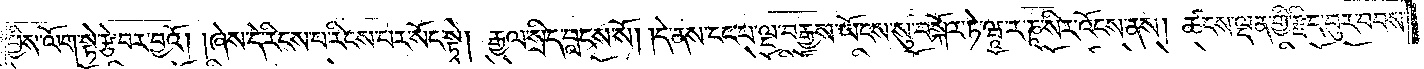ཕྱིས་ལོག་སྟེ་རྩེ་བར་བྱའོ། །ཞེས་དེ་རིངས་པ་རིངས་པར་སོང་སྟེ། རྒྱལ་སྲིད་བླངས་སོ། །དེ་ནས་ངང་པ་ལྔ་བརྒྱས་ཡོངས་སུ་བསྐོར་ཏེ་ཝཱ་ར་ཎཱ་སིར་འོངས་ནས། ཚངས་ལྡན་གྱི་རྫིང་བུར་བབས་
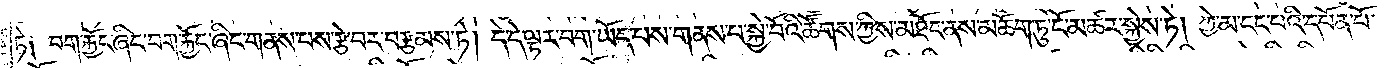ཏེ༑ བག་རྐྱོང་ཞིང་བག་རྐྱོང་ཞིང་གནས་པས་རྩེ་བར་བརྩམས་ཏེ། དེ་དེ་ལྟར་བག་ཡོད་པས་གནས་པ་སྐྱེ་བོའི་ཚོགས་ཀྱིས་མཐོང་ནས་མཆོག་ཏུ་ངོ་མཚར་སྐྱེས་ཏེ། ཀྱེ་མ་ངང་པའི་དཔོན་པོ་
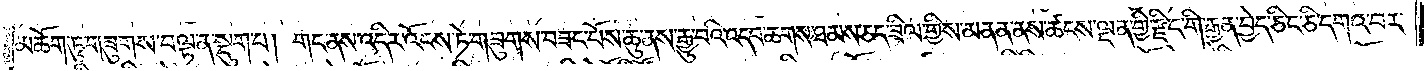མཆོག་ཏུ་གཟུགས་བལྟ་ན་སྡུག་པ། གང་ནས་འདིར་འོངས་ཏེ་གཟུགས་བཟང་པོས་ཆུ་ནས་རྒྱུ་བའི་འདབ་ཆགས་ཐམས་ཅད་ཟིལ་གྱིས་མནན་ནས་ཚངས་ལྡན་གྱི་རྫིང་གི་རྒྱན་བྱེད་ཅིང་ཅི་དགའ་བར་
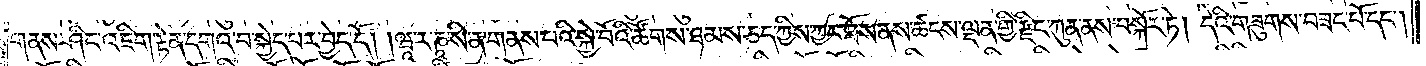གནས་ཤིང་འཇིག་རྟེན་དགའ་བ་སྐྱེད་པར་བྱེད་དོ། །ཝཱ་ར་ཎཱ་སི་ན་གནས་པའི་སྐྱེ་བོའི་ཚོགས་ཐམས་ཅད་ཀྱིས་ཀྱང་ཐོས་ནས་ཚངས་ལྡན་གྱི་རྫིང་ཀུན་ནས་བསྐོར་ཏེ། དེའི་གཟུགས་བཟང་པོ་དང༌།
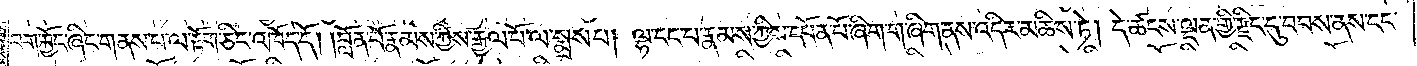བག་རྐྱོང་ཞིང་གནས་པ་ལ་རྟོག་ཅིང་འཁོད་དོ། །བློན་པོ་རྣམས་ཀྱིས་རྒྱལ་པོ་ལ་སྨྲས་པ། ལྷ་ངང་པ་རྣམས་ཀྱིས་དཔོན་པོ་ཞིག་ག་ཞིག་ནས་འདིར་མཆིས་ཏེ། དེ་ཚངས་ལྡན་གྱི་རྫིང་དུ་བབས་ནས་ངང་
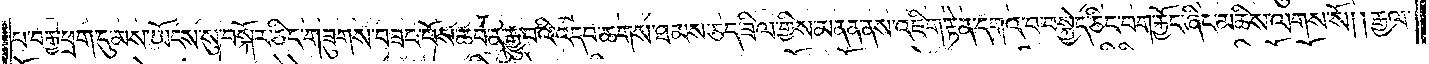པ་བརྒྱ་ཕྲག་དུ་མས་ཡོངས་སུ་བསྐོར་ཅིང་གཟུགས་བཟང་པོས་ཆབ་ན་རྒྱུ་བའི་འདབ་ཆགས་ཐམས་ཅད་ཟིལ་གྱིས་མནན་ནས་འཇིག་རྟེན་དགའ་བ་བསྐྱེད་ཅིང་བག་རྐྱོང་ཞིང་མཆིས་ལགས་སོ། །རྒྱལ་
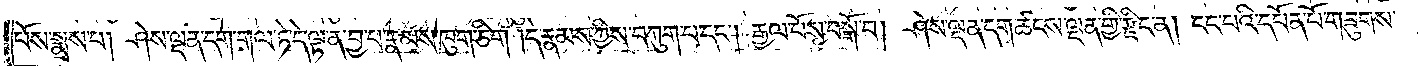པོས་སྨྲས་པ། ཤེས་ལྡན་དག་གལ་ཏེ་དེ་ལྟ་ན་བྱ་བ་རྣམས་ཁུག་ཅིག །དེ་རྣམས་ཀྱིས་བཀུག་པ་དང༌། རྒྱལ་པོས་བསྒོ་བ། ཤེས་ལྡན་དག་ཚངས་ལྡན་གྱི་རྫིང་ན། ངང་པའི་དཔོན་པོ་གཟུགས་
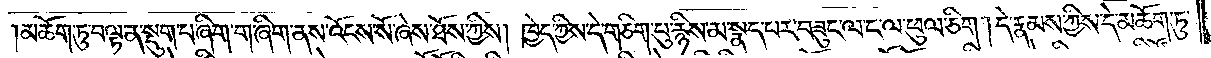མཆོག་ཏུ་བལྟ་ན་སྡུག་པ་ཞིག་ག་ཞིག་ནས་འོངས་སོ་ཞེས་ཐོས་ཀྱིས། ཁྱེད་ཀྱིས་དེ་གཅིག་པུ་རྙིས་མ་སྣད་པར་བཟུང་ལ་ང་ལ་ཕུལ་ཅིག །དེ་རྣམས་ཀྱིས་དེ་མཆོག་ཏུ་
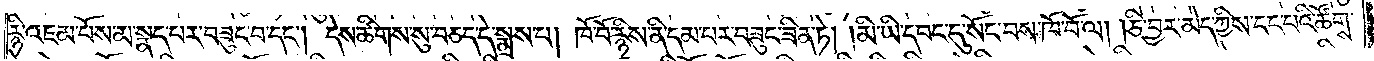རྙི་འཇམ་པོས་མ་སྣད་པར་བཟུང་བ་དང༌། དེས་ཚིགས་སུ་བཅད་དེ་སྨྲས་པ། ཁོ་བོ་རྙིས་ནི་དམ་པར་བཟུང་ཟིན་ཏེ། །མི་ཡི་དབང་དུ་སོང་བས་ཁོ་བོ་ལ། །ཅི་བྱར་མེད་ཀྱིས་ངང་པའི་ཚོགས་
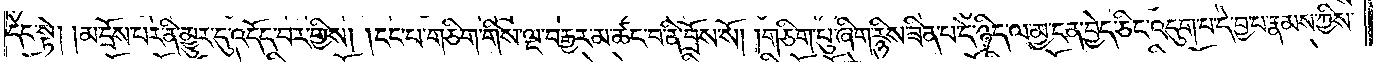དེང་སྟེ། །མ་དྲོས་པར་ནི་མྱུར་དུ་འདོད་པར་གྱིས། །ངང་པ་གཅིག་གིས་ལྔ་བརྒྱར་མ་ཚང་བ་ནི་བྲོས་སོ། །གཅིག་པུ་ཞིག་རྙིས་ཟིན་པ་དེ་ཉིད་ལ་མྱ་ངན་བྱེད་ཅིང་འདུག་པ་དེ་བྱ་པ་རྣམས་ཀྱིས་
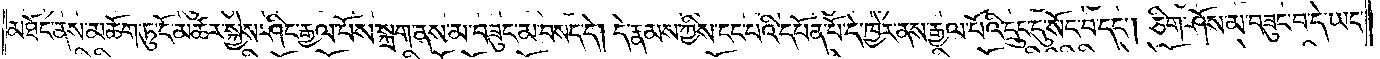མཐོང་ནས་མཆོག་ཏུ་ངོ་མཚར་སྐྱེས་ཤིང་རྒྱལ་པོས་སྐྲག་ནས་མ་བཟུང་མ་བསད་དེ། དེ་རྣམས་ཀྱིས་ངང་པའི་དཔོན་པོ་དེ་ཁྱེར་ནས་རྒྱལ་པོའི་དྲུང་དུ་སོང་བ་དང༌། ཅིག་ཤོས་མ་བཟུང་བ་དེ་ཡང་
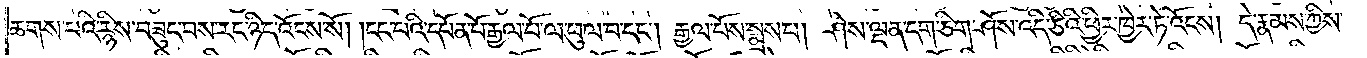ཆགས་པའི་རྙིས་བཟུང་བས་རང་ཉིད་འོངས་སོ། །ངང་པའི་དཔོན་པོ་རྒྱལ་པོ་ལ་ཕུལ་བ་དང༌། རྒྱལ་པོས་སྨྲས་པ། ཤེས་ལྡན་དག་ཅིག་ཤོས་འདི་ཅིའི་ཕྱིར་ཁྱེར་ཏེ་འོངས། དེ་རྣམས་ཀྱིས་
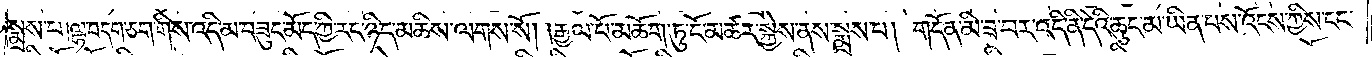སྨྲས་པ།ལྷ་བདག་ཅག་གིས་འདི་མ་བཟུང་མོད་ཀྱི་རང་ཉིད་མཆིས་ལགས་སོ། །རྒྱལ་པོ་མཆོག་ཏུ་ངོ་མཚར་སྐྱེས་ནས་སྨྲས་པ། གདོན་མི་ཟ་བར་འདི་ནི་དེའི་ཆུང་མ་ཡིན་པས་འོངས་ཀྱིས་ངང་
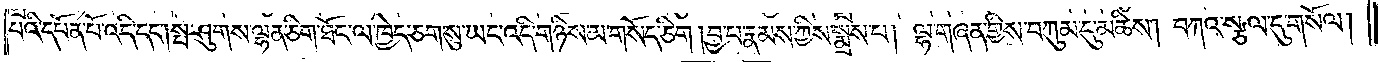པའི་དཔོན་པོ་འདི་དང༌། སྤ་ཤུགས་ལྷན་ཅིག་ཐོང་ལ་ཁྱེད་ཅག་སུ་ཡང་འདི་གཉིས་མ་གསོད་ཅིག །བྱ་པ་རྣམས་ཀྱིས་སྨྲས་པ། ལྷ་གཞན་གྱིས་བཀུམ་དུ་མཆིས། བཀའ་སྩལ་དུ་གསོལ། །
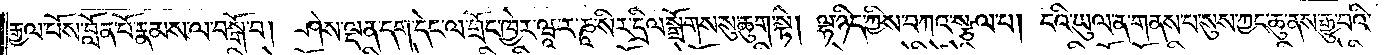རྒྱལ་པོས་བློན་པོ་རྣམས་ལ་བསྒོ་བ། ཤེས་ལྡན་དག་དེང་ལ་གྲོང་ཁྱེར་ཝཱ་ར་ཎཱ་སིར་དྲིལ་སྒྲོགས་སུ་ཆུག་སྟེ། ལྷ་ཉིད་ཀྱིས་བཀའ་སྩལ་པ། ངའི་ཡུལ་ན་གནས་པ་སུས་ཀྱང་ཆུ་ནས་རྒྱུ་བའི་
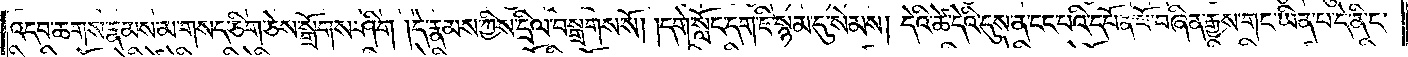འདབ་ཆགས་རྣམས་མ་གསད་ཅིག་ཅེས་སྒྲོགས་ཤིག །དེ་རྣམས་ཀྱིས་དྲིལ་བསྒྲགས་སོ། །དགེ་སློང་དག་ཇི་སྙམ་དུ་སེམས། དེའི་ཚེ་དེའི་དུས་ན་ངང་པའི་དཔོན་པོ་བཞིན་རྒྱས་གང་ཡིན་པ་དེ་ནི་ང་
